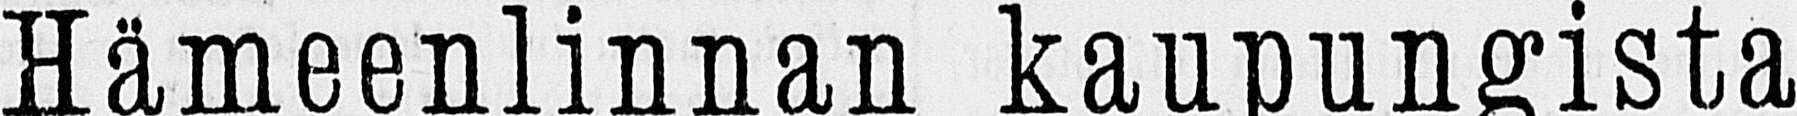Hämeenlinnan kaupungista
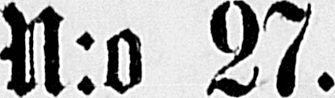N:o 27.
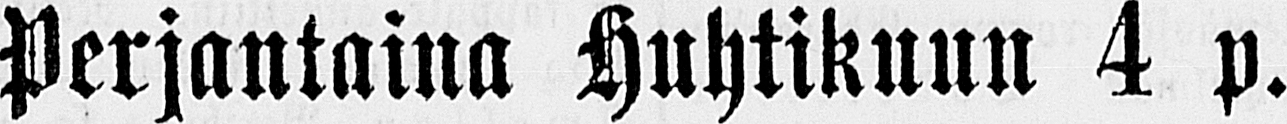Perjantaina Huhtikuun 4 p.
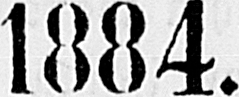1884.
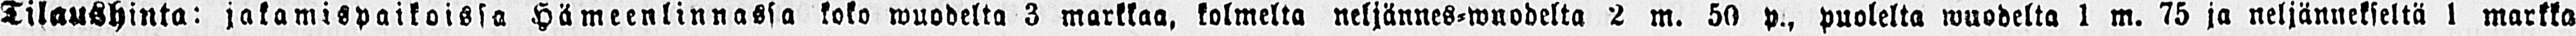Tilaushinta: jakamispaikoissa Hämeenlinnassa koko wuodelta 3 markkaa, kolmelta neljännes-wuodelta 2 m. 50 p., puolelta wuodelta l m. 75 ja neljännekseltä 1 markka
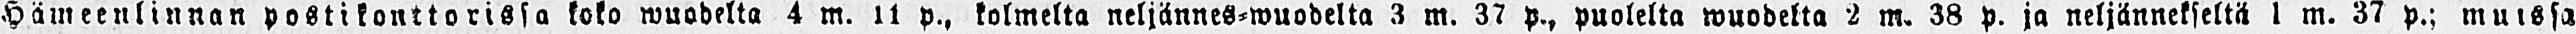Hämeenlinnan postikonttorissa koko wuodelta 4 m. 11 p.. kolmelta neljännes-wuodelta 3 m. 37 p., puolelta wuodelta 2 m. 38 p. ja neljännekseltä l m. 37 p.; muissa
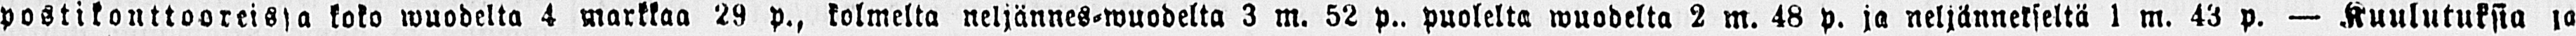postikonttooreissa koko wuodelta 4 markkaa 29 p., kolmelta neljännes-wuodelta 3 m. 52 p.. puolelta wuodelta 2 m. 48 p. ja neljännekseltä l m. 43 p. — Kuulutuksia ja
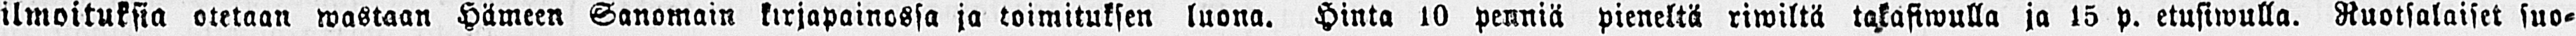ilmoituksia otetaan wastaan Hämeen Sanomain kirjapainossa ja toimituksen luona. Hinta 10 penniä pieneltä riwiltä takasiwulla ja 15 p. etusiwulla. Ruotsalaiset suo-
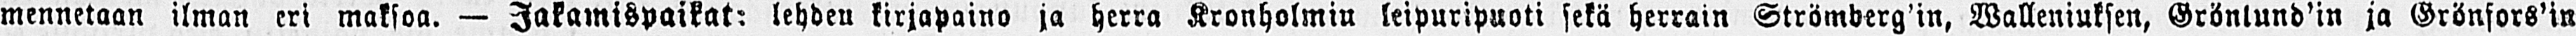mennetaan ilman eri maksoa. — Jakamispaikat: lehden kirjapaino ja herra Kronholmin leipuripuoti sekä herrain Strömberg’in, Walleniuksen, Grönlund’in ja Grönfors’in
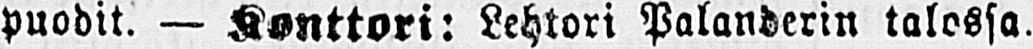puodit. — Konttori: Lehtori Palanderin talossa.
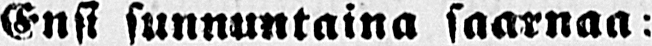Ensi sunnuntaina saarnaa:
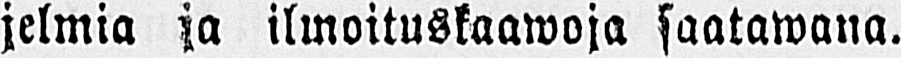jelmia ja ilmoituskaawoja saatawana.
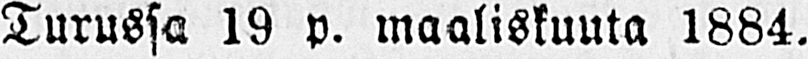Turussa 19 p. maaliskuuta 1884.
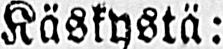Käskystä:
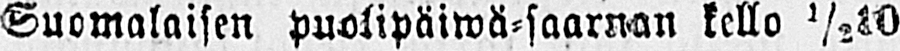Suomalaisen puolipäiwä-saarnan kello ½10
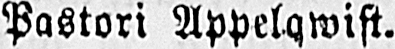Pastori Appelqwist.
